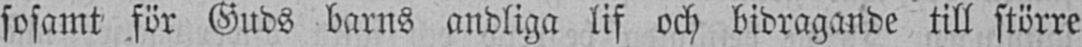sosamt för Guds barns andliga lif och bidragande till större
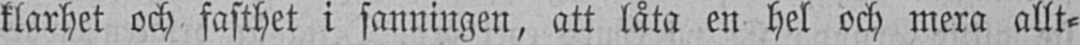klarhet och fasthet i sanningen, att låta en hel och mera allt-
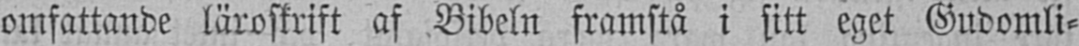omfattande läroskrift af Bibeln framstå i sitt eget Gudomli-
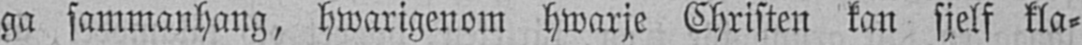ga sammanhang, hwarigenom hwarje Christen kan sjelf kla-
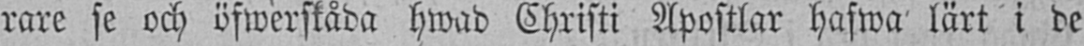rare se och öfwerskåda hwad Christi Apostlar hafwa lärt i de
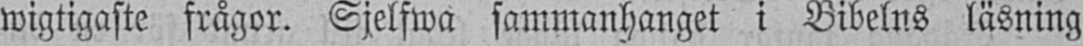wigtigaste frågor. Sjelfwa sammanhanget i Bibelns läsning
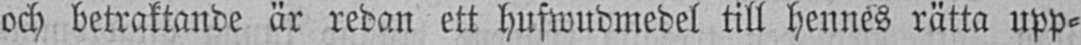och betraktande är redan ett hufwudmedel till hennes rätta upp-
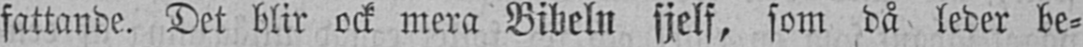fattande. Det blir ock mera Bibeln sjelf, som då leder be-
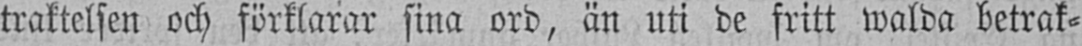traktelsen och förklarar sina ord, än uti de fritt walda betrak-
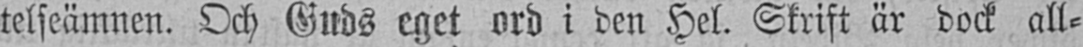telseämnen. Och Guds eget ord i den Hel. Skrift är dock all-
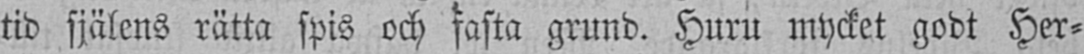tid själens rätta spis och fasta grund. Huru mycket godt Her-
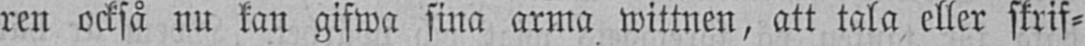ren också nu kan gifwa sina arma wittnen, att tala eller skrif-
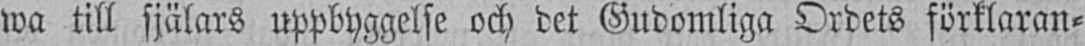wa till själars uppbyggelse och det Gudomliga Ordets förklaran-
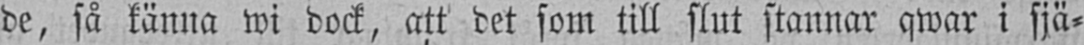de, så känna wi dock, att det som till slut stannar qwar i sjä-
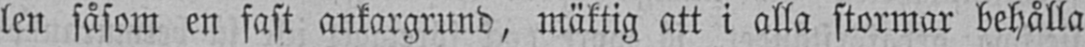len såsom en fast ankargrund, mäktig att i alla stormar behålla
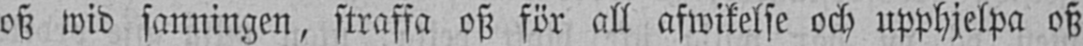osz wid sanningen, straffa osz för all afwikelse och upphjelpa osz
